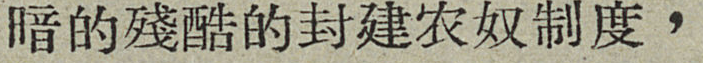暗的殘酷的封建农奴制度，
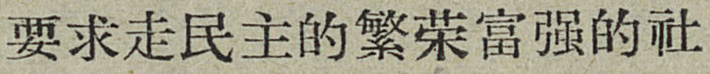要求走民主的繁荣富强的社
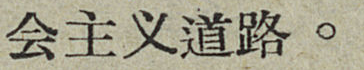会主义道路。
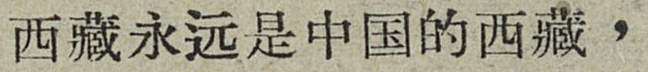西藏永远是中国的西藏，
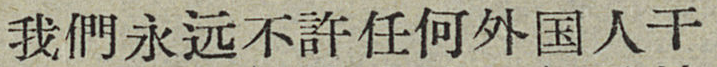我們永远不許任何外国人干
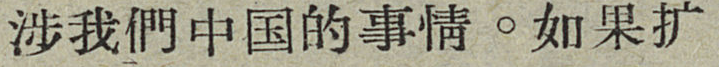涉我們中国的事情。如果扩
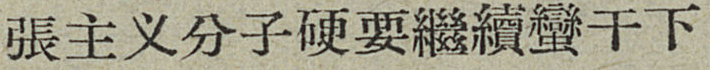張主义分子硬要繼續蠻干下
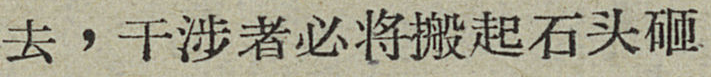去，干涉者必将搬起石头砸
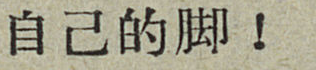自己的脚！
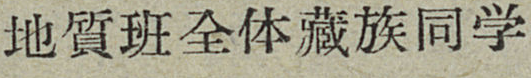地質班全体藏族同学
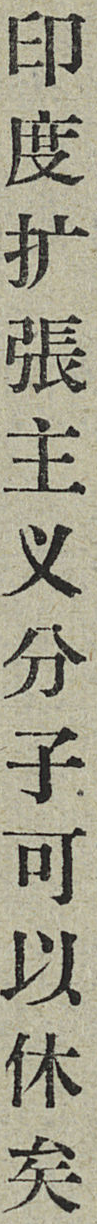印度扩張主义分子可以休矣
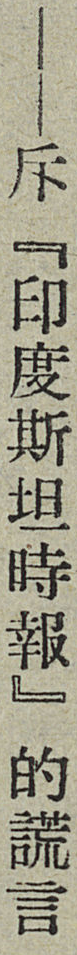——斥『印度斯坦時報』的謊言
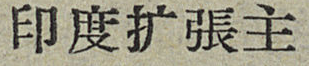印度扩張主
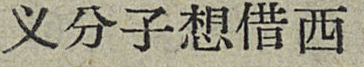义分子想借西
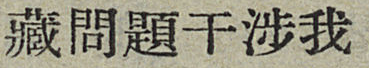藏問題干涉我
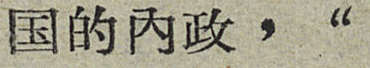国的内政，“
